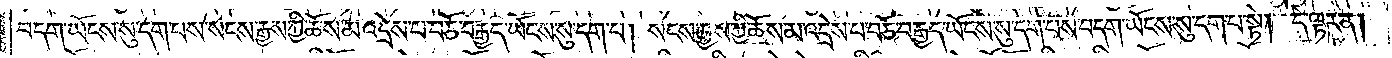བདག་ཡོངས་སུ་དག་པས་སངས་རྒྱས་ཀྱི་ཆོས་མ་འདྲེས་པ་བཅོ་བརྒྱད་ཡོངས་སུ་དག་པ། སངས་རྒྱས་ཀྱི་ཆོས་མ་འདྲེས་པ་བཅོ་བརྒྱད་ཡོངས་སུ་དག་པས་བདག་ཡོངས་སུ་དག་པ་སྟེ། དེ་ལྟར་ན།
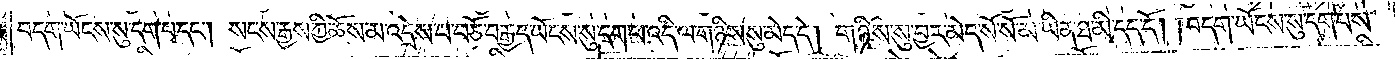བདག་ཡོངས་སུ་དག་པ་དང༌། སངས་རྒྱས་ཀྱི་ཆོས་མ་འདྲེས་པ་བཅོ་བརྒྱད་ཡོངས་སུ་དག་པ་འདི་ལ་གཉིས་སུ་མེད་དེ། གཉིས་སུ་བྱར་མེད་སོ་སོ་མ་ཡིན་ཐ་མི་དད་དོ། །བདག་ཡོངས་སུ་དག་པས་
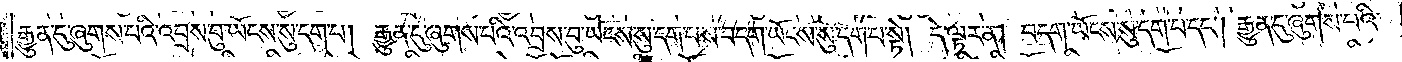རྒྱུན་དུ་ཞུགས་པའི་འབྲས་བུ་ཡོངས་སུ་དག་པ། རྒྱུན་དུ་ཞུགས་པའི་འབྲས་བུ་ཡོངས་སུ་དག་པས་བདག་ཡོངས་སུ་དག་པ་སྟེ། དེ་ལྟར་ན། བདག་ཡོངས་སུ་དག་པ་དང༌། རྒྱུན་དུ་ཞུགས་པའི་
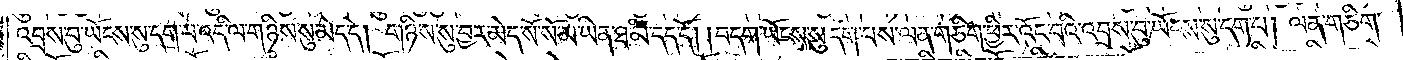འབྲས་བུ་ཡོངས་སུ་དག་པ་འདི་ལ་གཉིས་སུ་མེད་དེ། གཉིས་སུ་བྱར་མེད་སོ་སོ་མ་ཡིན་ཐ་མི་དད་དོ། །བདག་ཡོངས་སུ་དག་པས་ལན་ཅིག་ཕྱིར་འོང་བའི་འབྲས་བུ་ཡོངས་སུ་དག་པ། ལན་ཅིག་
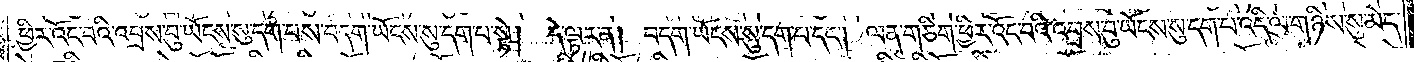ཕྱིར་འོང་པའི་འབྲས་བུ་ཡོངས་སུ་དག་པས་བདག་ཡོངས་སུ་དག་པ་སྟེ། དེ་ལྟར་ན། བདག་ཡོངས་སུ་དག་པ་དང༌། ལན་ཅིག་ཕྱིར་འོང་བའི་འབྲས་བུ་ཡོངས་སུ་དག་པ་འདི་ལ་གཉིས་སུ་མེད་
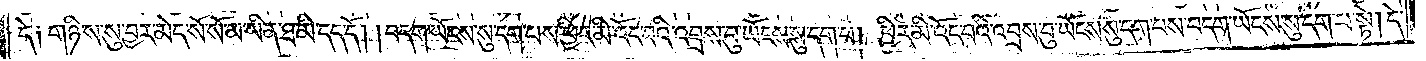དེ། གཉིས་སུ་བྱར་མེད་སོ་སོ་མ་ཡིན་ཐ་མི་དད་དོ། །བདག་ཡོངས་སུ་དག་པས་ཕྱིར་མི་འོང་བའི་འབྲས་བུ་ཡོངས་སུ་དག་པ། ཕྱིར་མི་འོང་བའི་འབྲས་བུ་ཡོངས་སུ་དག་པས་བདག་ཡོངས་སུ་དག་པ་སྟེ། དེ་
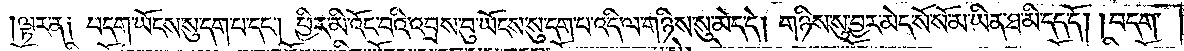ལྟར་ན། བདག་ཡོངས་སུ་དག་པ་དང༌། ཕྱིར་མི་འོང་བའི་འབྲས་བུ་ཡོངས་སུ་དག་པ་འདི་ལ་གཉིས་སུ་མེད་དེ། གཉིས་སུ་བྱར་མེད་སོ་སོ་མ་ཡིན་ཐ་མི་དད་དོ། །བདག་
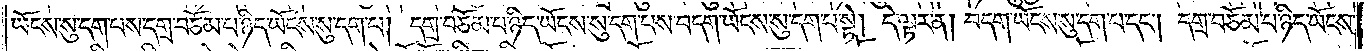ཡོངས་སུ་དག་པས་དགྲ་བཅོམ་པ་ཉིད་ཡོངས་སུ་དག་པ། དགྲ་བཅོམ་པ་ཉིད་ཡོངས་སུ་དག་པས་བདག་ཡོངས་སུ་དག་པ་སྟེ། དེ་ལྟར་ན། བདག་ཡོངས་སུ་དག་པ་དང༌། དགྲ་བཅོམ་པ་ཉིད་ཡོངས་
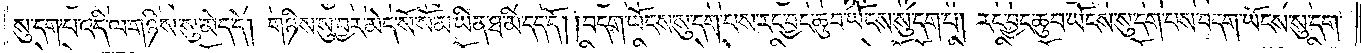སུ་དག་པ་འདི་ལ་གཉིས་སུ་མེད་དེ། གཉིས་སུ་བྱར་མེད་སོ་སོ་མ་ཡིན་ཐ་མི་དད་དོ། །བདག་ཡོངས་སུ་དག་པས་རང་བྱང་ཆུབ་ཡོངས་སུ་དག་པ། རང་བྱང་ཆུབ་ཡོངས་སུ་དག་པས་བདག་ཡོངས་སུ་དག་
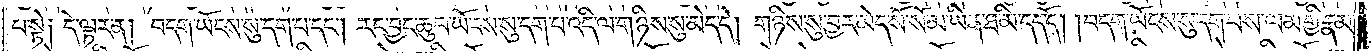པ་སྟེ༑ དེ་ལྟར་ན། བདག་ཡོངས་སུ་དག་པ་དང༌། རང་བྱང་ཆུབ་ཡོངས་སུ་དག་པ་འདི་ལ་གཉིས་སུ་མེད་དེ། གཉིས་སུ་བྱར་མེད་སོ་སོ་མ་ཡིན་ཐ་མི་དད་དོ། །བདག་ཡོངས་སུ་དག་པས་ལམ་གྱི་རྣམ་
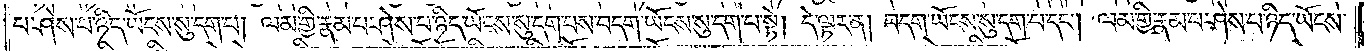པར་ཤེས་པ་ཉིད་ཡོངས་སུ་དག་པ། ལམ་གྱི་རྣམ་པ་ཤེས་པ་ཉིད་ཡོངས་སུ་དག་པས་བདག་ཡོངས་སུ་དག་པ་སྟེ། དེ་ལྟར་ན། བདག་ཡོངས་སུ་དག་པ་དང༌། ལམ་གྱི་རྣམ་པ་ཤེས་པ་ཉིད་ཡོངས་
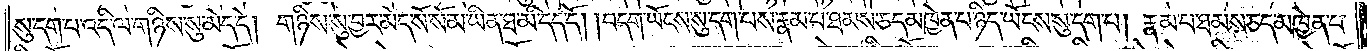སུ་དག་པ་འདི་ལ་གཉིས་སུ་མེད་དེ། གཉིས་སུ་བྱར་མེད་སོ་སོ་མ་ཡིན་ཐ་མི་དད་དོ། །བདག་ཡོངས་སུ་དག་པས་རྣམ་པ་ཐམས་ཅད་མཁྱེན་པ་ཉིད་ཡོངས་སུ་དག་པ། རྣམ་པ་ཐམས་ཅད་མཁྱེན་པ་
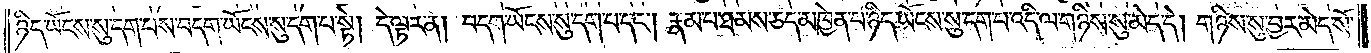ཉིད་ཡོངས་སུ་དག་པས་བདག་ཡོངས་སུ་དག་པ་སྟེ། དེ་ལྟར་ན། བདག་ཡོངས་སུ་དག་པ་དང༌། རྣམ་པ་ཐམས་ཅད་མཁྱེན་པ་ཉིད་ཡོངས་སུ་དག་པ་འདི་ལ་གཉིས་སུ་མེད་དེ། གཉིས་སུ་བྱར་མེད་སོ་
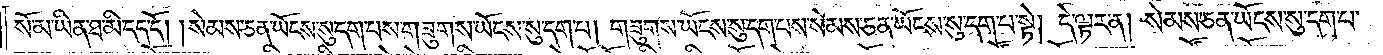སོ་མ་ཡིན་ཐ་མི་དད་དོ། །སེམས་ཅན་ཡོངས་སུ་དག་པས་གཟུགས་ཡོངས་སུ་དག་པ། གཟུགས་ཡོངས་སུ་དག་པས་སེམས་ཅན་ཡོངས་སུ་དག་པ་སྟེ། དེ་ལྟར་ན། སེམས་ཅན་ཡོངས་སུ་དག་པ་
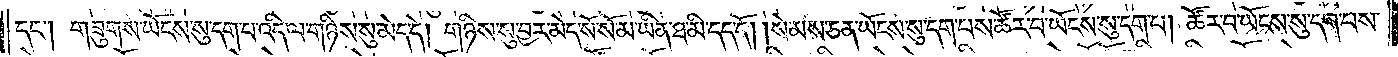དང༌། གཟུགས་ཡོངས་སུ་དག་པ་འདི་ལ་གཉིས་སུ་མེད་དེ། གཉིས་སུ་བྱར་མེད་སོ་སོ་མ་ཡིན་ཐ་མི་དད་དོ། །སེམས་ཅན་ཡོངས་སུ་དག་པས་ཚོར་བ་ཡོངས་སུ་དག་པ། ཚོར་བ་ཡོངས་སུ་དག་པས་
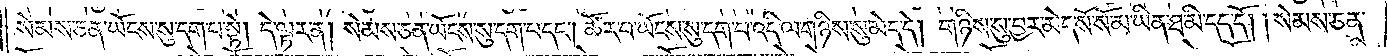སེམས་ཅན་ཡོངས་སུ་དག་པ་སྟེ། དེ་ལྟར་ན། སེམས་ཅན་ཡོངས་སུ་དག་པ་དང༌། ཚོར་བ་ཡོངས་སུ་དག་པ་འདི་ལ་གཉིས་སུ་མེད་དེ། གཉིས་སུ་བྱར་མེད་སོ་སོ་མ་ཡིན་ཐ་མི་དད་དོ། །སེམས་ཅན་
